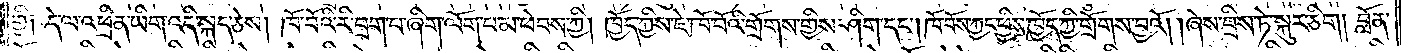གྱི༑ དེ་ལ་འཕྲིན་ཡིག་འདི་སྐད་ཅེས། ཁོ་བོའི་རི་བྲག་པ་ཞིག་ལོག་པ་མ་ཕེབས་ཀྱི། ཁྱོད་ཀྱིས་ཇེ་ཁོ་བོའི་གྲོགས་གྱིས་ཤིག་དང༌། ཁོ་བོས་ཀྱང་ཕྱིས་ཁྱོད་ཀྱི་གྲོགས་བྱའོ། །ཞེས་བྲིས་ཏེ་སྐུར་ཅིག། བློན་
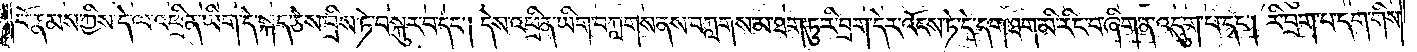པོ་རྣམས་ཀྱིས་དེ་ལ་འཕྲིན་ཡིག་དེ་སྐད་ཅེས་བྲིས་ཏེ་བསྐུར་བ་དང༌། དེས་འཕྲིན་ཡིག་བཀླགས་ནས་བཀླགས་མ་ཐག་ཏུ་རི་བྲག་དེར་འོངས་ཏེ་དེ་དག་ཐག་མི་རིང་བ་ཞིག་ན་འདུག་པ་དང༌། རི་བྲག་པ་དག་གིས་
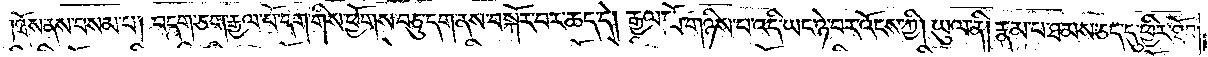ཐོས་ནས་བསམ་པ། བདག་ཅག་རྒྱལ་པོ་དག་གིས་ཕྱོགས་བཅུ་དག་ནས་བསྐོར་བར་ཆད་དེ། རྒྱལ་པོ་གཉིས་པ་འདི་ཡང་ཉེ་བར་འོངས་ཀྱི། ཡུལ་ནི། རྣམ་པ་ཐམས་ཅད་དུ་ཕྱིར་ཐོབ་
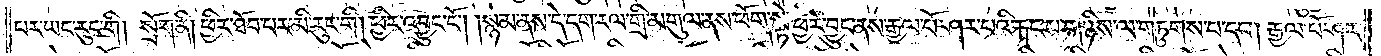པར་ཡང་རུང་གི། སྲོག་ནི། ཕྱིར་ཐོབ་པར་མི་རུང་གི། ཕྱིར་འབྱུང་ངོ༌། །སྙམ་ནས་དེ་དག་རལ་གྲི་མགུལ་ནས་ཕོག་སྟེ་ཕྱིར་བྱུང་ནས་རྒྱལ་པོ་ཤར་པའི་རྐང་པ་གཉིས་ལ་གཏུགས་པ་དང༌། རྒྱལ་པོ་ཤར་
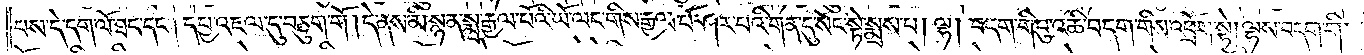པས་དེ་དག་ལོ་ཐང་དང༌། དཔྱ་འཇལ་དུ་བཅུག་གོ །དེ་ནས་མི་སྙན་སྨྲ་རྒྱལ་པོའི་ཡོ་ལང་གིས་རྒྱལ་པོ་ཤར་བའི་གན་དུ་སོང་སྟེ་སྨྲས་པ། ལྷ་།བདག་གི་བུ་འཆི་བདག་གིས་འཕྲོག་སྟེ། ལྷས་བདག་གི་
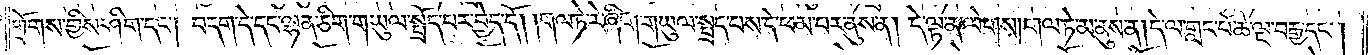གྲོགས་གྱིས་ཤིག་དང༌། བདག་དེ་དང་ལྷན་ཅིག་གཡུལ་སྤྲོད་པར་བྱེད་དོ། །གལ་ཏེ་རེ་ཞིག་གཡུལ་སྤྲད་པས་དེ་ཕམ་པར་ནུས་ན། དེ་ལྟ་ན་ལེགས། གལ་ཏེ་མ་ནུས་ན། དེ་ལ་གླང་པོ་ཆེ་ལྔ་བརྒྱ་དང༌།
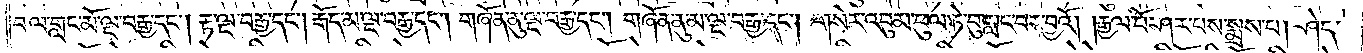བལ་གླང་མོ་ལྔ་བརྒྱ་དང༌། རྟ་ལྔ་བརྒྱ་དང༌། རྒོད་མ་ལྔ་བརྒྱ་དང༌། གཞོན་ནུ་ལྔ་བརྒྱ་དང༌། གཞོན་ནུ་མ་ལྔ་བརྒྱ་དང༌། གསེར་འབུམ་ཕུལ་ཏེ་བུ་བླང་བར་བྱའོ། །རྒྱལ་པོ་ཤར་པས་སྨྲས་པ། ཤེད་
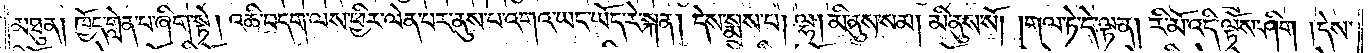མཐུན། ཁྱོད་གླེན་པ་ཞིག་སྟེ། འཆི་བདག་ལས་ཕྱིར་ལེན་པར་ནུས་པ་འགའ་ཡང་ཡོད་རེ་སྐན། དེས་སྨྲས་པ། ལྷ། མི་ནུས་སམ། མི་ནུས་སོ། །གལ་ཏེ་དེ་ལྟ་ན། རི་མོ་འདི་ལྟོས་ཤིག །དེས་
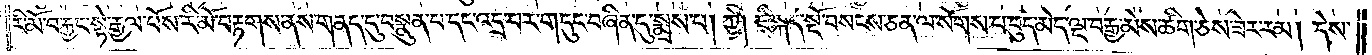རི་མོ་བརྐྱང་སྟེ་རྒྱལ་པོས་རི་མོ་བརྟགས་ནས་གནད་དུ་བསྣུན་པ་དང་འདྲ་བར་གདུང་བཞིན་དུ་སྨྲས་པ། ཀྱེ། ཇི་སྐད་སྔོ་བསངས་ཅན་ལ་སོགས་པ་བུད་མེད་ལྔ་བརྒྱ་མེས་ཚིག་ཅེས་ཟེར་རམ། དེས་
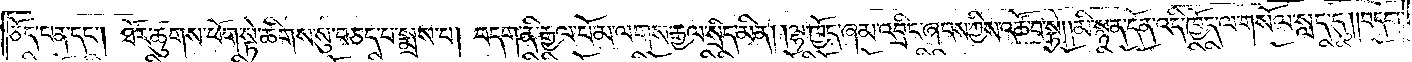ཅོད་པན་དང༌། ཐོར་ཚུགས་ཕོག་སྟེ་ཚིགས་སུ་བཅད་པ་སྨྲས་པ། བདག་ནི་རྒྱལ་པོ་མ་ལགས་རྒྱལ་སྲིད་མིན། །ལྷ་ཁྱོད་ཞམ་འབྲིང་ཞབས་ཀྱིས་འཚོ་བ་སྟེ། །མི་སྙན་དོན་འདི་ཁྱོད་ལ་གསོལ་སླད་དུ། །བདག་
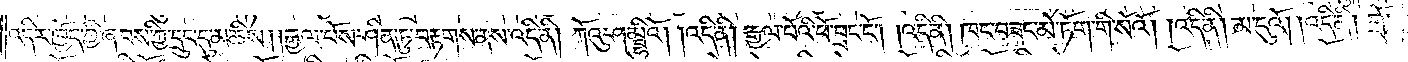འདིར་ཁྱོད་ཀྱི་ཞབས་ཀྱི་དྲུང་དུ་མཆིས། །རྒྱལ་པོས་ཤིན་ཏུ་བརྟགས་ནས་འདི་ནི། ཀོའུ་ཤམྦྷིའོ། །འདི་ནི། རྒྱལ་པོའི་ཕོ་བྲང་ངོ༌། །འདི་ནི། ཁང་བཟང་མེ་ཏོག་གི་སོའོ། །འདི་ནི། མ་དུའོ། །འདི་ནི། གྲོ།
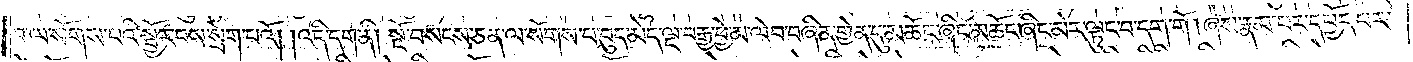བ་ལ་སོགས་པའི་སྦྱོར་བས་སྲེག་པའོ། །འདི་དག་ནི། སྔོ་བསངས་ཅན་ལ་སོགས་པ་བུད་མེད་ལྔ་བརྒྱ་ཕྱེ་མ་ལེབ་བཞིན་གྱེན་དུ་མཆོང་ཞིང་མཆོང་ཞིང་མེར་ལྟུང་བ་དག་གོ །ཞེས་རྣམ་པར་དཔྱོད་པར་
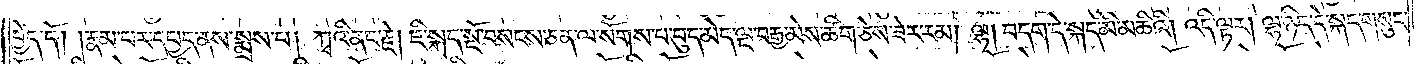བྱེད་དོ། །རྣམ་པར་དཔྱད་ནས་སྨྲས་པ། ཀྭའི་ནང་རྗེ། ཇི་སྐད་སྔོ་བསངས་ཅན་ལ་སོགས་པ་བུད་མེད་ལྔ་བརྒྱ་མེས་ཚིག་ཅེས་ཟེར་རམ། ལྷ། བདག་དེ་སྐད་མི་མཆིའི། །འདི་ལྟར། ལྷ་ཉིད་དེ་སྐད་གསུང་
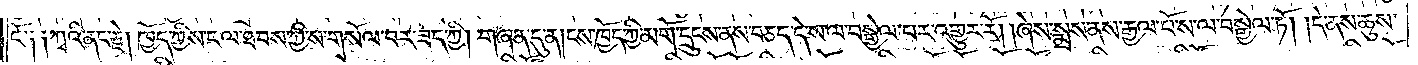ངོ༑ ༑ཀྭའི་ནང་རྗེ། ཁྱོད་ཀྱིས་ངལ་ཐབས་ཀྱི་ས་གསོལ་བར་ཟད་ཀྱི། གཞན་དུ་ན། ངས་ཁྱོད་ཀྱི་མགོ་དྲུངས་ནས་བཅད་དེ་ས་ལ་བསྒྱེལ་བར་འགྱུར་རོ། །ཞེས་སྨྲས་ནས་རྒྱལ་པོ་ས་ལ་བསྒྱེལ་ཏོ། །དེ་ནས་ཆུས་
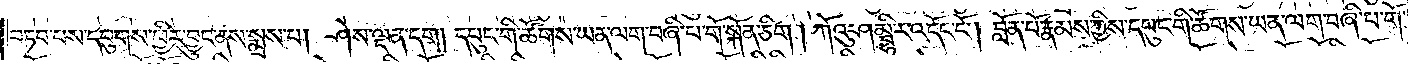བཏབ་པས་དབུགས་ཕྱིར་བྱུང་ནས་སྨྲས་པ། ཤེས་ལྡན་དག །དཔུང་གི་ཚོགས་ཡན་ལག་བཞི་པ་གོ་སྐོན་ཅིག །ཀོའུ་ཤམྦྷི་ར་འདོང་ངོ༌། །བློན་པོ་རྣམས་ཀྱིས་དཔུང་གི་ཚོགས་ཡན་ལག་བཞི་པ་གོ་
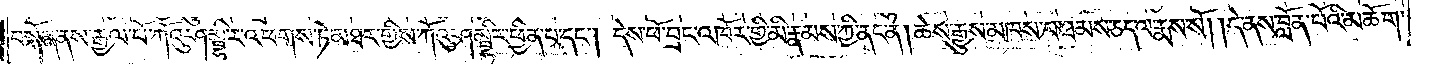བསྐོན་ནས་རྒྱལ་པོ་ཀོའུ་ཤམྦྷིར་འཕགས་ཏེ་མཐར་གྱིས་ཀོའུ་ཤམྦྷིར་ཕྱིན་པ་དང༌། དེས་ཕོ་བྲང་འཁོར་གྱི་མི་རྣམས་ཀྱི་ནང་ན། ཆེས་རྒྱུས་མཁས་པ་ཐམས་ཅད་ལ་རྨས་སོ། །དེ་ནས་བློན་པོའི་མཆོག་
